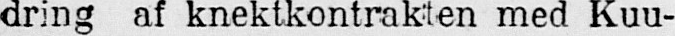dring af knektkontrakten med Kuu-
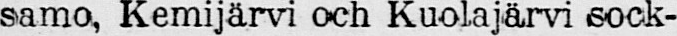samo, Kemijärvi och Kuolajärvi sock-
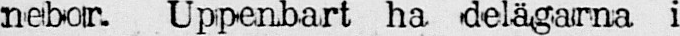nebor. Uppenbart ha delägarna i
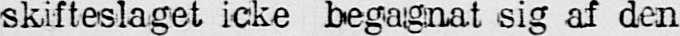skifteslaget icke begagnat sig af den
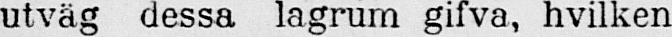utväg dessa lagrum gifva, hvilken
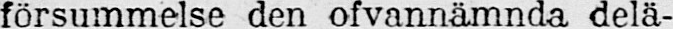försummelse den ofvannämnda delä-
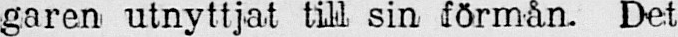garen utnyttjat till sin förmån. Det
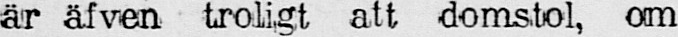är äfven troligt att domstol, om
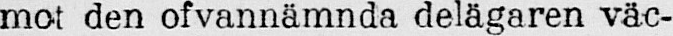mot den ofvannämnda delägaren väc-
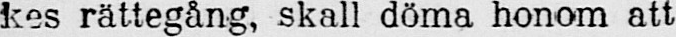kes rättegång, skall döma honom att
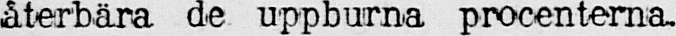återbära de uppburna procenterna.
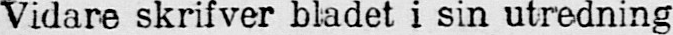Vidare skrifver bladet i sin utredning
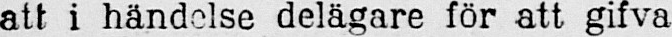att i händelse delägare för att gifva
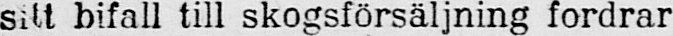sitt bifall till skogsförsäljning fordrar
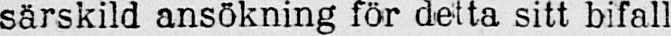särskild ansökning för detta sitt bifall
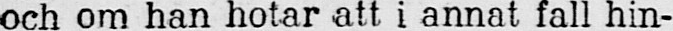och om han hotar att i annat fall hin-
